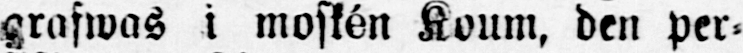grafwas i moskén Koum, den per-
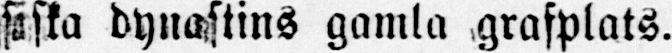siska dynastins gamla grafplats.
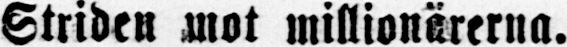Striden mot millionärerna.
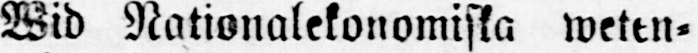Wid Nationalekonomiska weten-
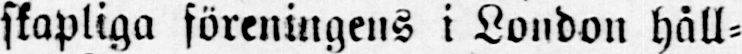skapliga föreningens i London håll-
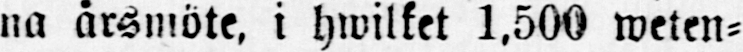na årsmöte, i hwilket 1,500 weten-
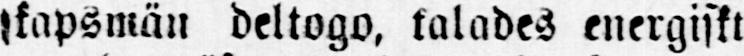skapsmän deltogo, talades energiskt
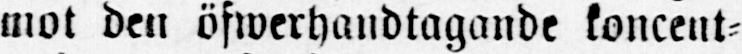mot den öfwerhandtagande koncent-
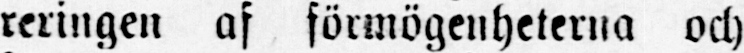reringen af förmögenheterna och
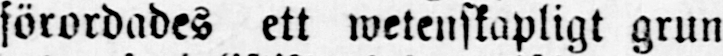förordades ett wetenskapligt grun-
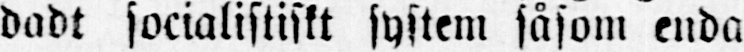dadt socialistiskt system såsom enda
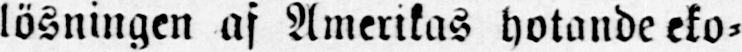lösningen af Amerikas hotande eko-
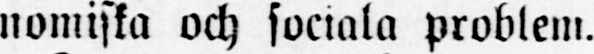nomiska och sociala problem.
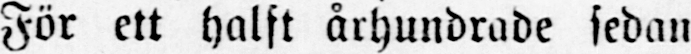För ett halft århundrade sedan
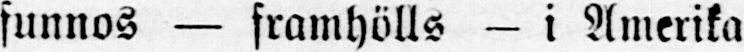funnos — framhölls — i Amerika
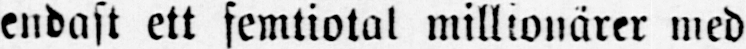endast ett femtiotal millionärer med
